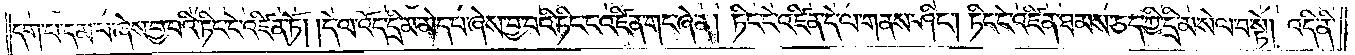དག་པ་དམ་པ་ཞེས་བྱ་བའི་ཏིང་ངེ་འཛིན་ཏོ། །དེ་ལ་འོད་དྲི་མ་མེད་པ་ཞེས་བྱ་བའི་ཏིང་ངེ་འཛིན་གང་ཞེ་ན། ཏིང་ངེ་འཛིན་དེ་ལ་གནས་ཤིང༌། ཏིང་ངེ་འཛིན་ཐམས་ཅད་ཀྱི་དྲི་མ་སེལ་བ་སྟེ། འདི་ནི་
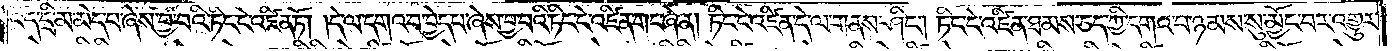འོད་དྲི་མ་མེད་པ་ཞེས་བྱ་བའི་ཏིང་ངེ་འཛིན་ཏོ། །དེ་ལ་དགའ་བ་བྱེད་པ་ཞེས་བྱ་བའི་ཏིང་ངེ་འཛིན་གང་ཞེ་ན། ཏིང་ངེ་འཛིན་དེ་ལ་གནས་ཤིང༌། ཏིང་ངེ་འཛིན་ཐམས་ཅད་ཀྱི་དགའ་བ་ཉམས་སུ་མྱོང་བར་འགྱུར་
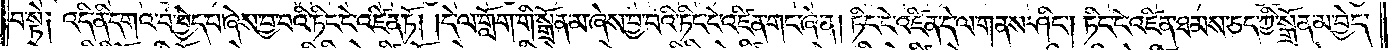བ་སྟེ༑ འདི་ནི་དགའ་བ་བྱེད་པ་ཞེས་བྱ་བའི་ཏིང་ངེ་འཛིན་ཏོ། །དེ་ལ་གློག་གི་སྒྲོན་མ་ཞེས་བྱ་བའི་ཏིང་ངེ་འཛིན་གང་ཞེ་ན། ཏིང་ངེ་འཛིན་དེ་ལ་གནས་ཤིང༌། ཏིང་ངེ་འཛིན་ཐམས་ཅད་ཀྱི་སྒྲོན་མ་བྱེད་
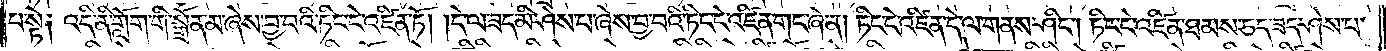པ་སྟེ། འདི་ནི་གློག་གི་སྒྲོན་མ་ཞེས་བྱ་བའི་ཏིང་ངེ་འཛིན་ཏོ། །དེ་ལ་ཟད་མི་ཤེས་པ་ཞེས་བྱ་བའི་ཏིང་ངེ་འཛིན་གང་ཞེ་ན། ཏིང་ངེ་འཛིན་དེ་ལ་གནས་ཤིང༌། ཏིང་ངེ་འཛིན་ཐམས་ཅད་ཟད་ཤེས་པ་
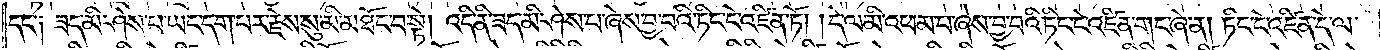དང༌། ཟད་མི་ཤེས་པ་ཡང་དག་པར་རྗེས་སུ་མི་མཐོང་བ་སྟེ། འདི་ནི་ཟད་མི་ཤེས་པ་ཞེས་བྱ་བའི་ཏིང་ངེ་འཛིན་ཏོ། །དེ་ལ་མི་འཕམ་པ་ཞེས་བྱ་བའི་ཏིང་ངེ་འཛིན་གང་ཞེ་ན། ཏིང་ངེ་འཛིན་དེ་ལ་
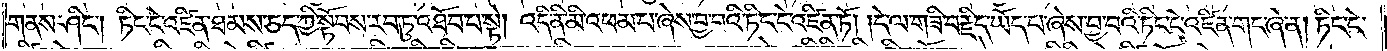གནས་ཤིང༌། ཏིང་ངེ་འཛིན་ཐམས་ཅད་ཀྱི་སྟོབས་རབ་ཏུ་འཐོབ་པ་སྟེ། འདི་ནི་མི་འཕམ་པ་ཞེས་བྱ་བའི་ཏིང་ངེ་འཛིན་ཏོ། །དེ་ལ་གཟི་བརྗིད་ཡོད་པ་ཞེས་བྱ་བའི་ཏིང་ངེ་འཛིན་གང་ཞེ་ན། ཏིང་ངེ་
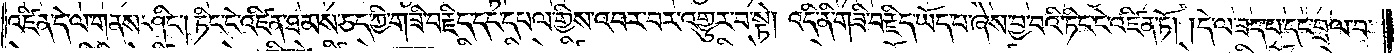འཛིན་དེ་ལ་གནས་ཤིང༌། ཏིང་ངེ་འཛིན་ཐམས་ཅད་ཀྱི་གཟི་བརྗིད་དང་དཔལ་གྱིས་འབར་བར་འགྱུར་བ་སྟེ། འདི་ནི་གཟི་བརྗིད་ཡོད་པ་ཞེས་བྱ་བའི་ཏིང་ངེ་འཛིན་ཏོ། །དེ་ལ་ཟད་པ་དང་བྲལ་བ་
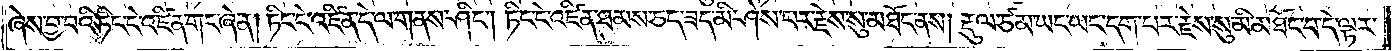ཞེས་བྱ་བའི་ཏིང་ངེ་འཛིན་གང་ཞེ་ན། ཏིང་ངེ་འཛིན་དེ་ལ་གནས་ཤིང༌། ཏིང་ངེ་འཛིན་ཐམས་ཅད་ཟད་མི་ཤེས་པར་རྗེས་སུ་མཐོང་ནས། རྡུལ་ཙམ་ཡང་ཡང་དག་པར་རྗེས་སུ་མི་མཐོང་བ་དེ་ལྟར་
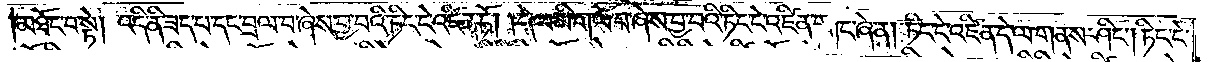མཐོང་བ་སྟེ། འདི་ནི་ཟད་པ་དང་བྲལ་བ་ཞེས་བྱ་བའི་ཏིང་ངེ་འཛིན་ཏོ། །དེ་ལ་མི་གཡོ་བ་ཞེས་བྱ་བའི་ཏིང་ངེ་འཛིན་གང་ཞེ་ན། ཏིང་ངེ་འཛིན་དེ་ལ་གནས་ཤིང༌། ཏིང་ངེ་
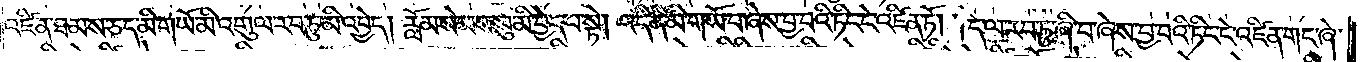འཛིན་ཐམས་ཅད་མི་གཡོ་མི་འགུལ་རབ་ཏུ་མི་འབྱེད། རློམ་སེམས་སུ་མི་བྱེད་པ་སྟེ། འདི་ནི་མི་གཡོ་བ་ཞེས་བྱ་བའི་ཏིང་ངེ་འཛིན་ཏོ། །དེ་ལ་རབ་ཏུ་ཞི་བ་ཞེས་བྱ་བའི་ཏིང་ངེ་འཛིན་གང་ཞེ་
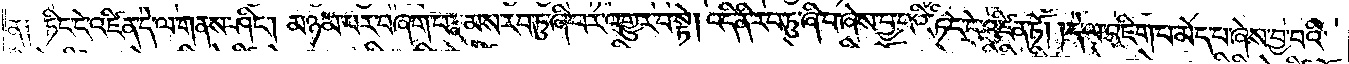ན༑ ཏིང་ངེ་འཛིན་དེ་ལ་གནས་ཤིང༌། མཉམ་པར་བཞག་པ་རྣམས་རབ་ཏུ་ཞི་བར་འགྱུར་བ་སྟེ། འདི་ནི་རབ་ཏུ་ཞི་བ་ཞེས་བྱ་བའི་ཏིང་ངེ་འཛིན་ཏོ། །དེ་ལ་འཇིག་པ་མེད་པ་ཞེས་བྱ་བའི་
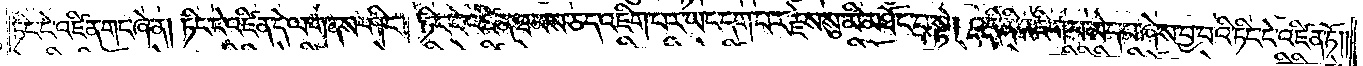ཏིང་ངེ་འཛིན་གང་ཞེ་ན། ཏིང་ངེ་འཛིན་དེ་ལ་གནས་ཤིང༌། ཏིང་ངེ་འཛིན་ཐམས་ཅད་འཇིག་པར་ཡང་དག་པར་རྗེས་སུ་མི་མཐོང་བ་སྟེ། འདི་ནི་འཇིག་པ་མེད་པ་ཞེས་བྱ་བའི་ཏིང་ངེ་འཛིན་ཏོ། །
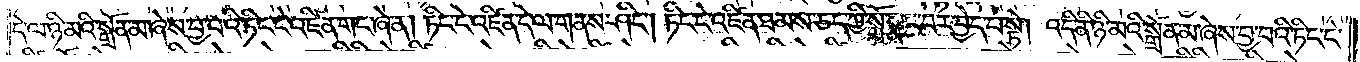དེ་ལ་ཉི་མའི་སྒྲོན་མ་ཞེས་བྱ་བའི་ཏིང་ངེ་འཛིན་གང་ཞེ་ན། ཏིང་ངེ་འཛིན་དེ་ལ་གནས་ཤིང༌། ཏིང་ངེ་འཛིན་ཐམས་ཅད་ཀྱི་སྒོ་སྣང་བར་བྱེད་པ་སྟེ། འདི་ནི་ཉི་མའི་སྒྲོན་མ་ཞེས་བྱ་བའི་ཏིང་ངེ་
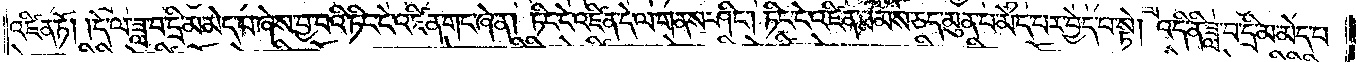འཛིན་ཏོ། །དེ་ལ་ཟླ་བ་དྲི་མེད་པ་ཞེས་བྱ་བའི་ཏིང་ངེ་འཛིན་གང་ཞེ་ན། ཏིང་ངེ་འཛིན་དེ་ལ་གནས་ཤིང༌། ཏིང་ངེ་འཛིན་ཐམས་ཅད་མུན་པ་མེད་པར་བྱེད་པ་སྟེ། འདི་ནི་ཟླ་བ་དྲི་མ་མེད་པ་
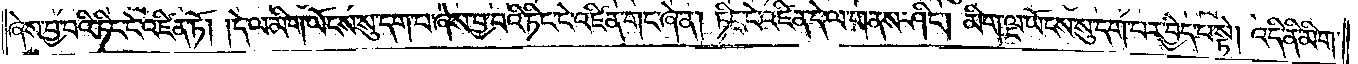ཞེས་བྱ་བའི་ཏིང་ངེ་འཛིན་ཏོ། །དེ་ལ་མིག་ཡོངས་སུ་དག་པ་ཞེས་བྱ་བའི་ཏིང་ངེ་འཛིན་གང་ཞེ་ན། ཏིང་ངེ་འཛིན་དེ་ལ་གནས་ཤིང༌། མིག་ལྔ་ཡོངས་སུ་དག་པར་བྱེད་པ་སྟེ། འདི་ནི་མིག་
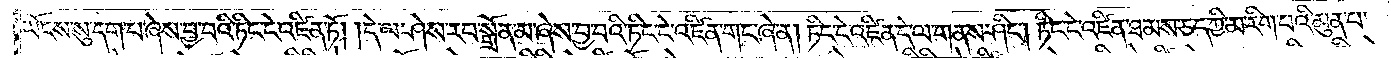ཡོངས་སུ་དག་པ་ཞེས་བྱ་བའི་ཏིང་ངེ་འཛིན་ཏོ། །དེ་ལ་ཤེས་རབ་སྒྲོན་མ་ཞེས་བྱ་བའི་ཏིང་ངེ་འཛིན་གང་ཞེ་ན། ཏིང་ངེ་འཛིན་དེ་ལ་གནས་ཤིང༌། ཏིང་ངེ་འཛིན་ཐམས་ཅད་ཀྱི་མ་རིག་པའི་མུན་པ་
